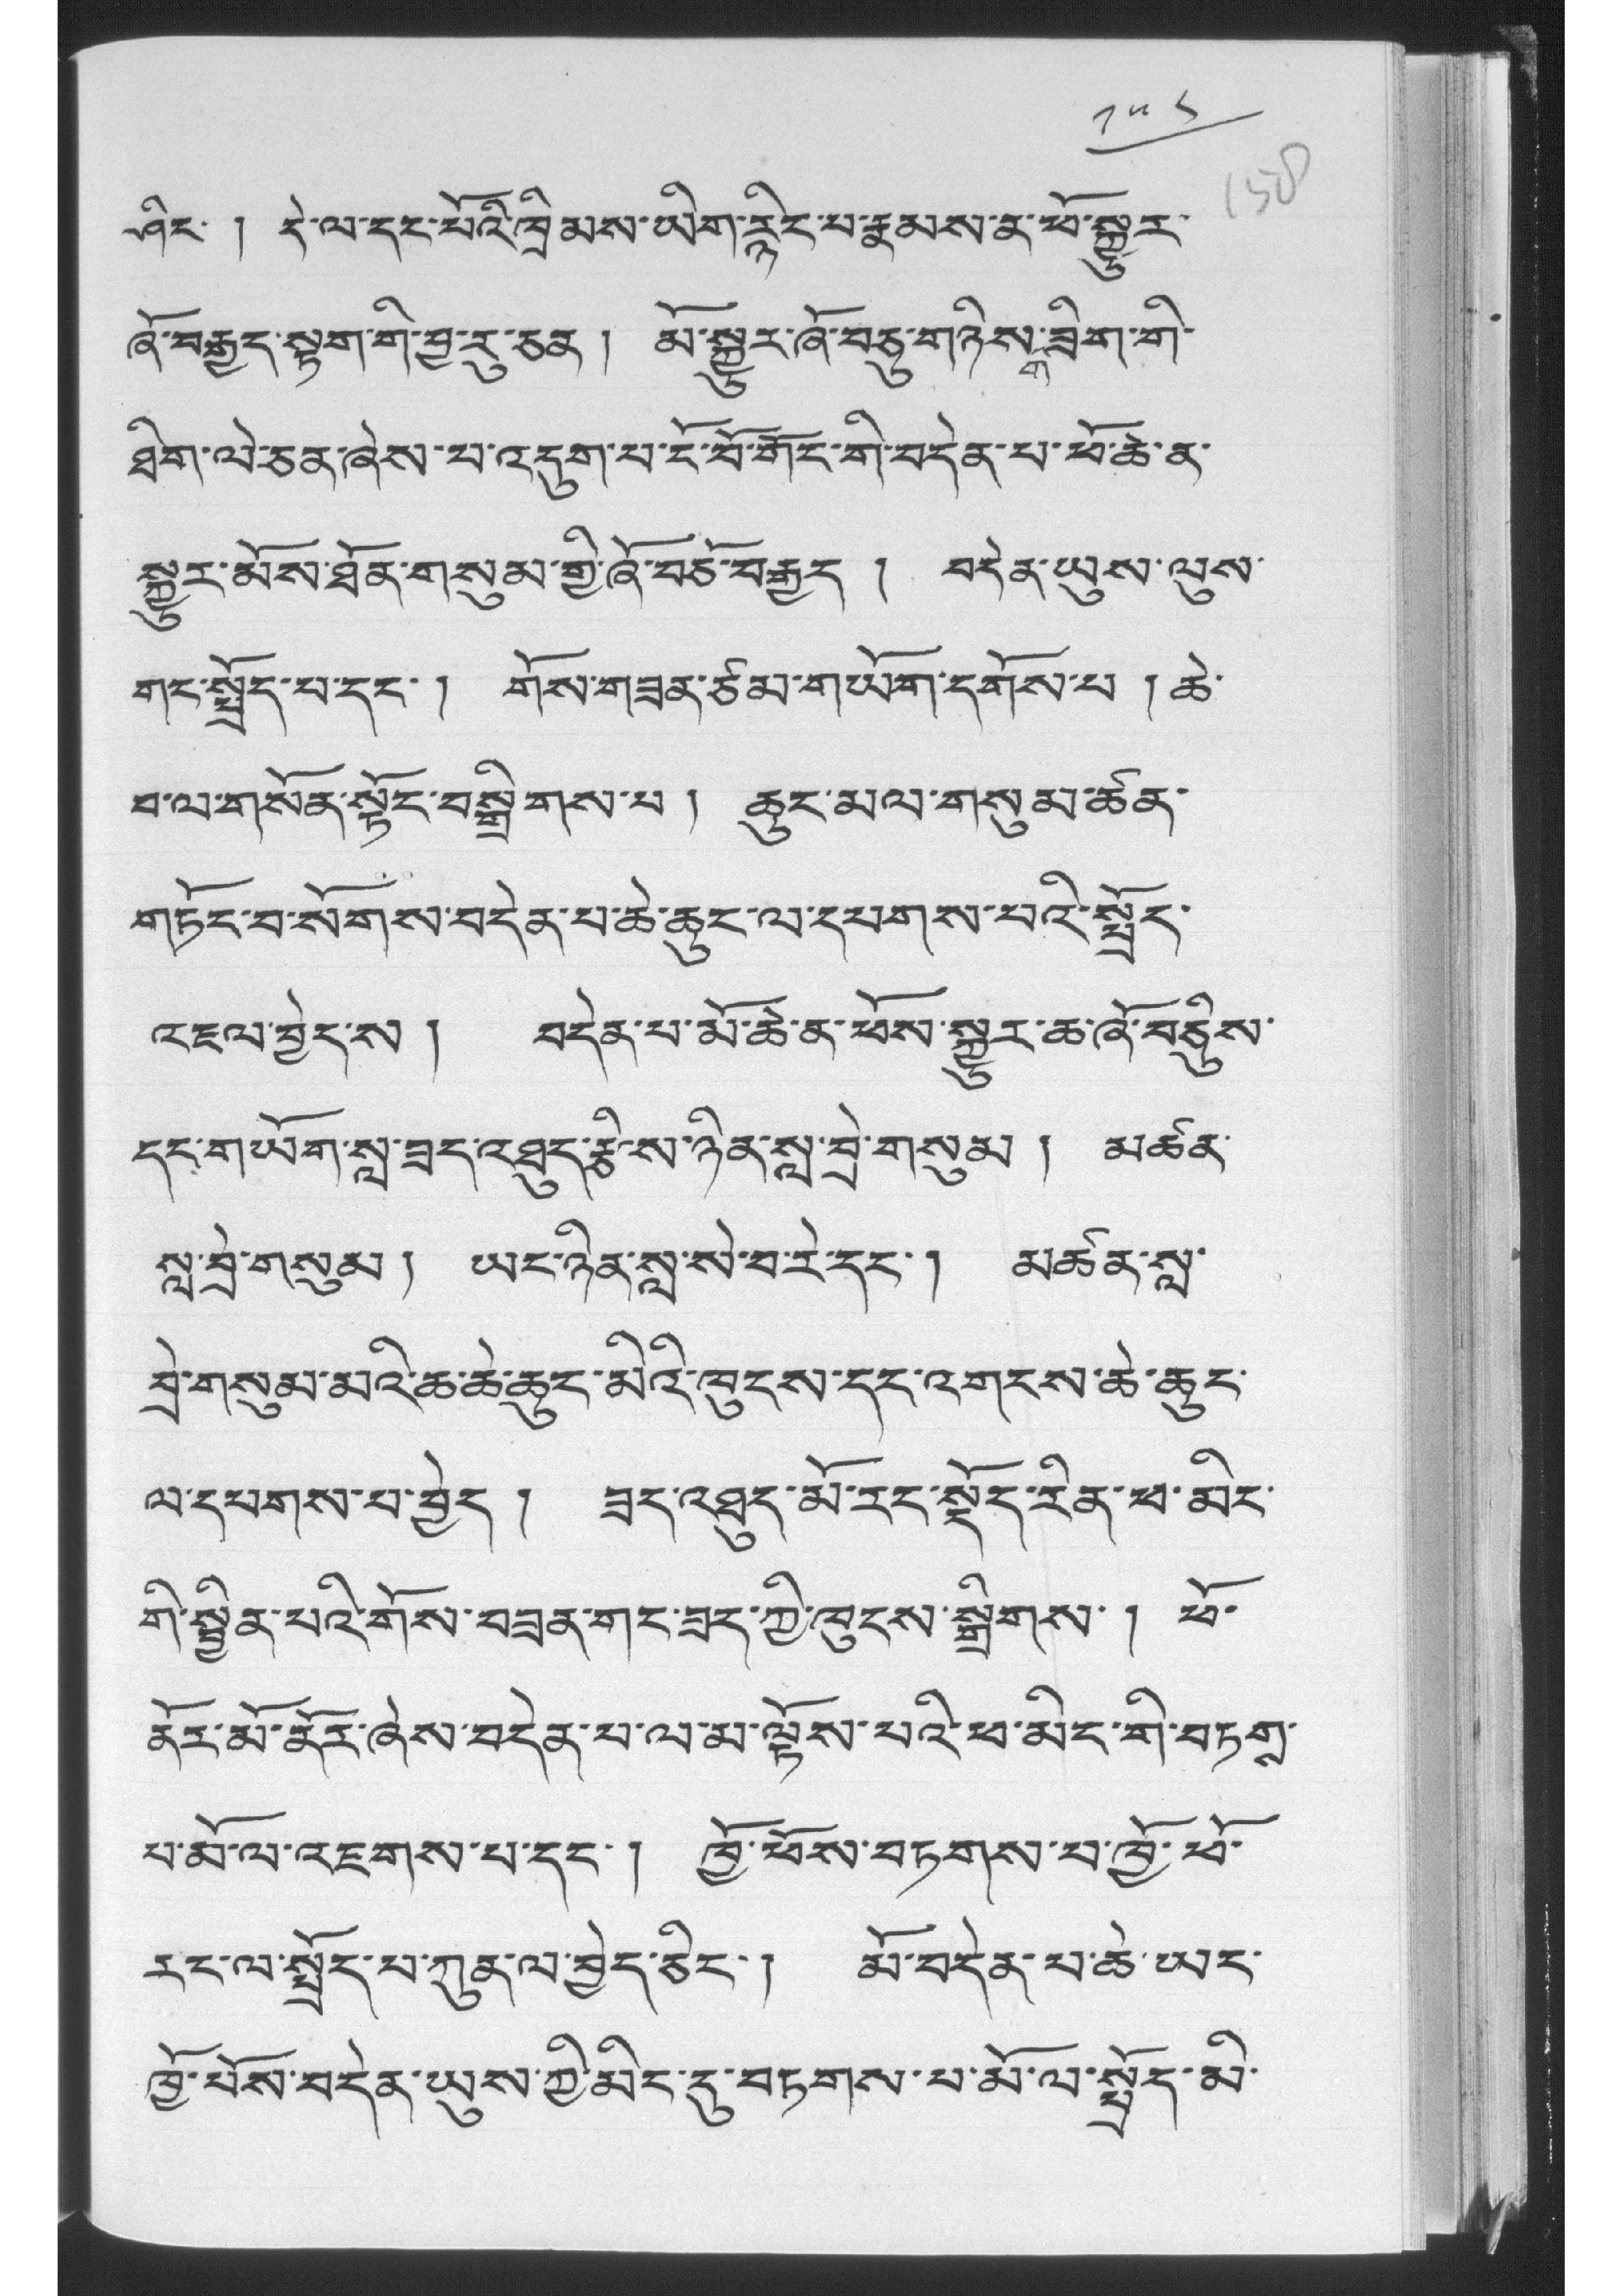༡༥༨
ཤིང་ ། དེ་ལ་དང་པོའི་ཁྲིམས་ཡིག་རྙིང་པ་རྣམས་ན་ཕོ་སྐྱུར་
ཞོ་བརྒྱད་སྟག་གི་བྱ་རུ་ཅན ། མོ་སྐྱུར་ཞོ་བཅུ་གཉིས་གཟིག་གི་
ཐིག་ལེ་ཅན་ཞེས་པ་འདུག་པ་ངོ་བོ་གོང་གི་བདེན་པ་ཕོ་ཆེ་ན་
སྐྱུར་མོས་ཐོན་གསུམ་གྱི་ཞོ་བཅོ་བརྒྱད ། བདེན་ཡུས་ལུས་
གང་སྤྲོད་པ་དང་། གོས་གཟན་ཙམ་གཡོག་དགོས་པ ། ཆེ་
བ་ལ་གསོན་སྟོང་བསྒྲིགས་པ ། ཆུང་མལ་གསུམ་ཚན་
གཏོང་བ་སོགས་བདེན་པ་ཆེ་ཆུང་ལ་དཔགས་པའི་སྤྲོད་
འཇལ་བྱེད་ས ། བདེན་པ་མོ་ཆེ་ན་ཕོས་སྐྱུར་ཆ་ཞོ་བཅིུས་
དང་གཡོག་སླ་ཟད་འཐུད་རྩིས་ཉིན་སླ་བྲེ་གསུམ ། མཚན་
སླ་བྲེ་གསུམ། ཡང་ཉིན་སླ་སེ་བ་རེ་དང་། མཚན་སླ་
བྲེ་གསུམ་མའི་ཆ་ཆེ་ཆུང་མིའི་ཁུངས་དང་འགངས་ཆེ་ཆུང་
ལ་དཔགས་པ་བྱེད། ཟད་འཐུད་མོ་རང་སྡོད་རིན་ཕ་མིང་
གི་སྦྱིན་པའི་གོས་བཟན་གང་ཟད་ཀྱི་ཁུངས་སྒྲིགས་། ཕོ་
ནོར་མོ་ནོར་ཞེས་བདེན་པ་ལ་མ་ལྟོས་པའི་ཕ་མིང་གི་བཏགས་
པ་མོ་ལ་འཇགས་པ་དང་། ཁྱོ་ཕོས་བཏགས་པ་ཁྱོ་ཕོ་
རང་ལ་སྤྲོད་པ་ཀུན་ལ་བྱེད་ཅིང་། མོ་བདེན་པ་ཆེ་ཡང་
ཁྱོ་པོས་བདེན་ཡུས་ཀྱི་མིང་དུ་བཏགས་པ་མོ་ལ་སྤྲོད་མི་
